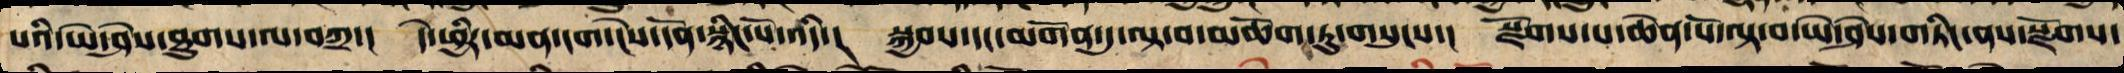པའི་ཡེ་ཤེས་ཐུགས་ལ་བཀྲ་།   དེ་ཕྱིར་མན་ངག་ངེས་དོན་སྙིང་པོ་འདི་། སྐྱབས་དང་མགོན་དུ་ལྟ་བ་མཆོག་ཏུ་གསུངས་།   སྫོགས་པ་ཆེན་པོ་ལྟ་བ་ཡེ་ཤེས་གཏིང་ནས་སྫོགས་
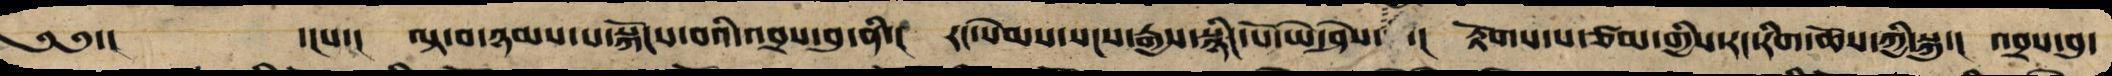༄༅་། ་ངས་།   ལྟ་བ་ཉམས་པ་སྐངས་བའི་འབྲས་བུ་ནི་། རང་སེམས་སངས་རྒྱས་སྙིང་པོ་ཡེ་ཤེས་། རྟོགས་པ་ཙམ་གྱིས་རང་རིག་ཆོས་ཀྱི་སྐུ། འབྲས་བུ་
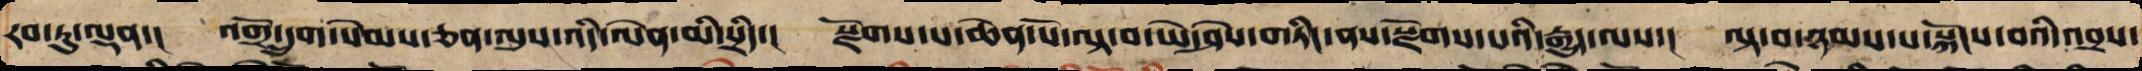རབ་ཏུ་ལྡན་།   འགྲོ་དྲུག་སེམས་ཅན་ལུས་འདི་ལེན་མི་སྲིད་།   སྫོགས་པ་ཆེན་པོ་ལྟ་བ་ཡེ་ཤེས་གཏིང་ནས་སྫོགས་པའི་རྒྱུད་ལས་།   ལྟ་བ་ཉམས་པ་སྐོངས་བའི་འབྲས་
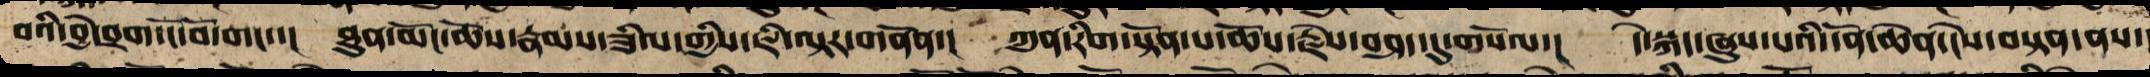བའི་བྱེ་བྲག་ངོ་བོ་གང་་།   ཐུན་མོང་ཆོས་རྣམས་ཟིལ་གྱིས་ཇི་ལྟར་གནོན་།   ཀུན་རིག་སྟོན་པ་ཆོས་རྗེས་བཤད་དུ་གསོལ་།   དེ་སྐད་ཞུས་པའི་དོན་ཆེན་ངེས་བསྟན་ནས་
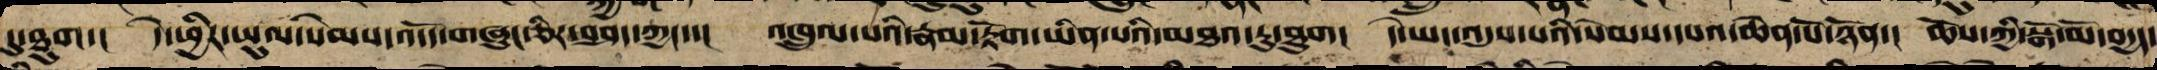དུ་ཐུག་།   དེ་ཕྱིར་ཡུལ་སེམས་འདོད་གཞུང་ཅིར་བཤད་ཀྱང་་།   འཁྲུལ་པའི་རྣམ་རྟོག་ཡིན་པའི་མཐའ་རུ་ཐུག།   དེ་ཡང་འདུས་པའི་སེམས་དཔའ་ཆེན་པོ་ཉོན་།   ཆོས་ཀྱི་སྒོ་མོ་བདྱད་
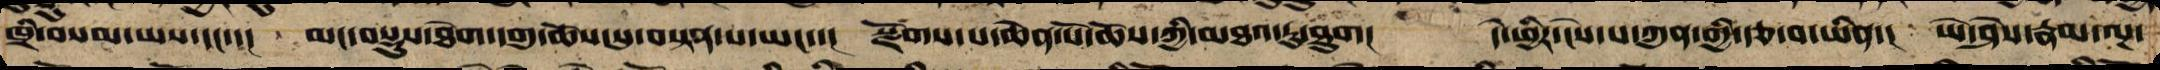ཁྲི་བསམ་ཡས་དང་་།   མང་བསྡུས་ཐེག་དགུ་ཆོས་སུ་བསྟན་པ་ཡང་་།    སྫོགས་པ་ཆེན་པོ་ཆོས་ཀྱི་མཐའ་རུ་ཐུག།    དེ་ཕྱིར་ངེས་པ་ཀུན་གྱི་རྩ་བ་ཡིན་།    ཡེ་ཤེས་རྣམ་ལྔ་
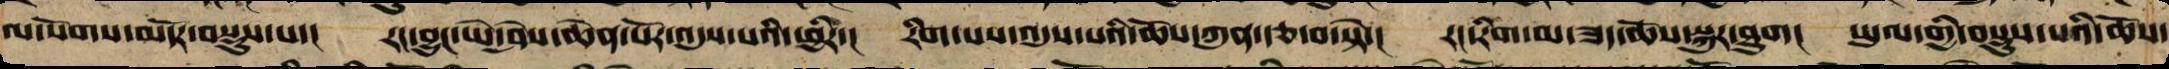ལ་སོགས་མདོར་བསྡུས་པ་།   རང་བྱུང་ཡེ་ཤེས་ཆེན་པོར་འདུས་པའི་ཕྱིར་།   རིག་པས་འདུས་པའི་ཆོས་ཀུན་རྩ་བ་སྟེ་།   རང་རིག་མ་ཟད་ཆོས་སྐུར་ཐུག།  ཡུལ་གྱི་བསྡུས་པའི་ཆོས་
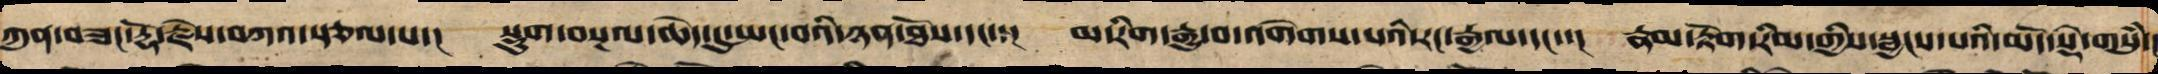ཀུན་བཟང་རྡོ་རྗེས་བཀའ་སྩལ་པ་།   སྡུག་བསྔལ་ཆེད་དུ་སྤང་བའི་ཉན་ཐོས་དང་་།   མ་རིག་རྒྱུ་བ་འགེགས་པའི་རང་རྒྱལ་དང་་།   རྣམ་རྟོག་རིམ་གྱིས་སྦྱངས་པའི་མདོ་སྡེ་གསུཾ་
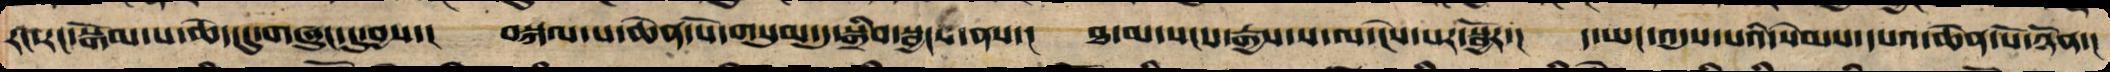རང་རང་སྒོམ་པ་ཆེད་དུ་གཞུང་དུ་བྱས་།   བསྐལ་པ་ཆེན་པོ་གསུམ་དུ་སྒྲིབ་སྦྱངས་ནས་།   ཐ་མ་སངས་རྒྱས་ས་ལ་ངེས་པར་སྦྱོར་།   ད་ཡང་འདུས་པའི་སེམས་དཔའ་ཆེན་པོ་ཉོན་།
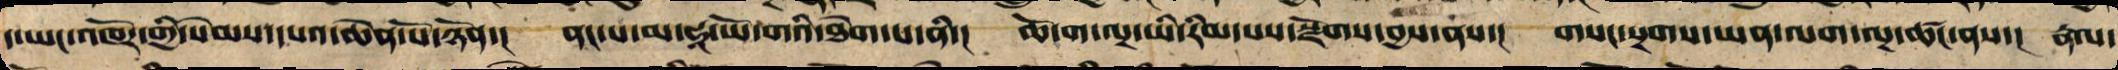ད་ཡང་འཁོར་གྱི་སེམས་དཔའ་ཆེན་པོ་ཉོན་།   ནང་པ་མ་ཧཱ་ཡོ་གའི་ཐེག་པ་ནི་།   ཆོ་ག་ལྔ་ཡི་རིམ་པས་སྫོགས་བྱས་ནས་།   གསང་སྔགས་ཡན་ལག་ལྔ་ཚང་ནས་།  རྣལ་
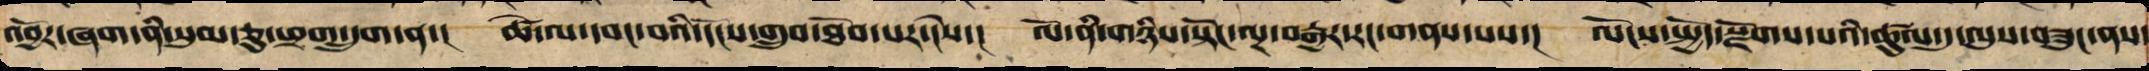འབྱོར་ཞག་ནི་སུམ་ཅུ་ཕྲག་དྲུག་ན་།   ཚེ་ལ་དབང་བའི་དངོས་གྲུབ་ཐོབ་པར་ངེས་།   ལོ་ནི་ཉིས་སྟོང་ལྔ་བརྒྱར་རང་གནས་པས་།   ལོངས་སྤྱོད་སྫོགས་པའི་ཚུལ་དུ་ལུས་བཟུང་ནས་
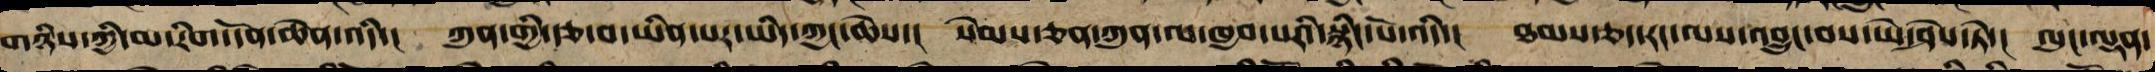གཉིས་ཀྱི་མ་རིག་དོན་ཆེན་འདི་།   ཀུན་གྱི་རྩ་བ་ཡིན་པར་ཡིད་ཀྱང་ཆེས་།   སེམས་ཅན་ཀུན་ལ་ཁྱབ་པའི་སྙིང་པོ་འདི་།   ཐམས་ཅད་རང་ལས་བྱུང་བས་ཡེ་ཤེས་ཏེ་།   ལུང་ལྡན་
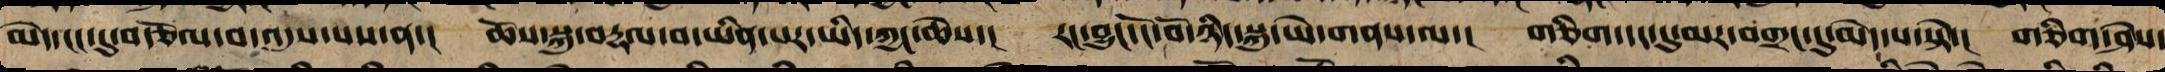མེད་ངང་དུ་བརྩོལ་བ་འདུས་པས་ན་།   ཆོས་སྐུ་བརྡལ་བ་ཡིན་པར་ཡིད་ཀྱང་ཆེས་།   རང་བྱུང་ངོ་བོ་ཉིད་སྐུ་ཡེ་གནས་ལ་།   གཅིག་དང་དུ་མར་བགྲང་དུ་མེད་པ་སྟེ་།   གཅིག་ཤེས་
